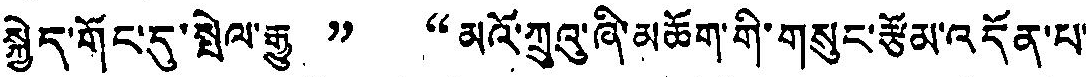སྐྱེད་གོང་དུ་སྤེལ་རྒྱུ ” “མའི་ཀྲུའུ་ཞི་མཆོག་ག་གསུང་རྩོམ་འདོན་པ་
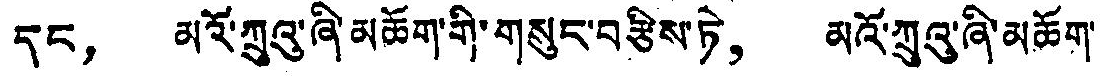དང， མའོ་ཀྲུའུ་ཞི་མཆོག་གི་གསུང་བརྩིས་ཏེ， མའོ་ཀྲུའུ་ཞི་མཆོག་
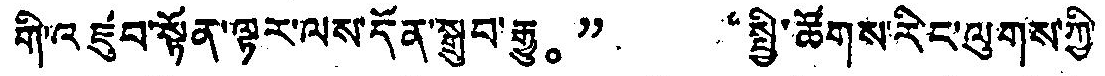གི་འཛུབ་སྟོན་ལྟར་ལས་དོན་སྒྲུབ་རྒྱུ。” “སྤྱི་ཚོགས་རིང་ལུགས་ཀྱི་
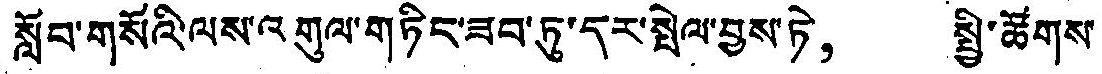སློབ་གསོའི་ལས་འགུལ་གཏིང་ཟབ་ཏུ་དར་སྤེལ་བྱས་ཏེ， སྤྱི་ཚོགས་
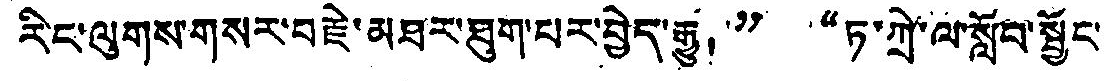རིང་ལུགས་གསར་བརྗེ་མཐར་ཐུག་པར་བྱེད་རྒྱུ།” “ཏ་ཀྲེ་ལ་སློབ་སྦྱོང་
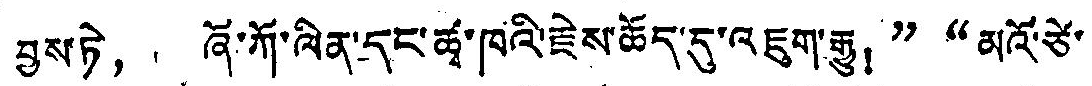བྱས་ཏེ， ཞོ་ཀོ་ལིན་དང་ཚྭ་ཁའི་རྗེས་ཆོད་དུ་འཇུག་རྒྱུ།”“མའོ་ཙེ་
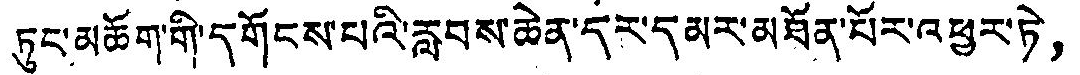ཏུང་མཆོག་གི་དགོངས་པའི་རླབས་ཆེན་དར་དམར་མཐོན་པོར་འཕྱུར་ཏེ，
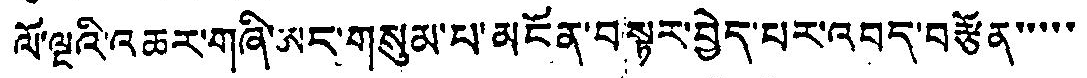ལོ་ལྔའི་འཆར་གཞི་ཨང་གསུམ་པ་མངོན་བསྟར་བྱེད་པར་འབད་བརྩོན་་་་་
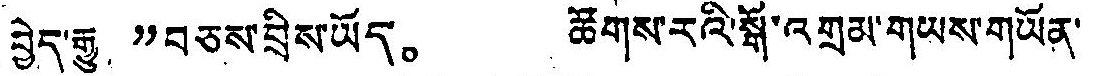བྱེད་རྒྱུ”བཅས་བྲིས་ཡོད。 ཚོགས་རའི་སྒོ་འགྲམ་གཡས་གཡོན་
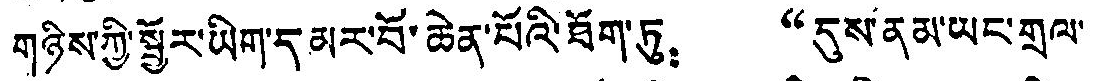གཉིས་ཀྱི་སྦྱོར་ཡིག་དམར་པོ་ཆེན་པོའི་ཐོག་ཏུ： “དུས་ནམ་ཡང་གྲལ་
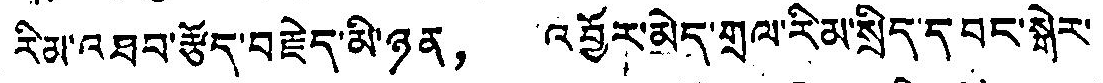རིམ་འཐབ་རྩོད་བརྗེད་མི་ཉན， འབྱོར་མེད་གྲལ་རིམ་སྲིད་དབང་སྒེར་
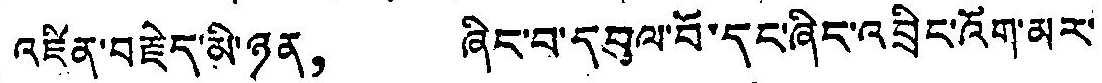འཛིན་བརྗེད་མི་ཉན， ཞེང་བ་དབུལ་བ་དང་ཞིང་འབྲིང་འོག་མར་
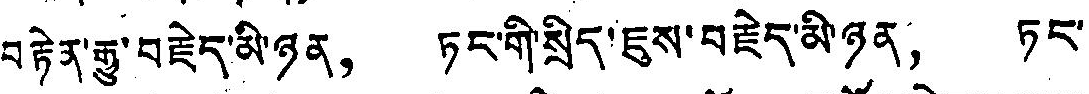བརྟེན་རྒྱུ་བརྗེད་མི་ཉན， ཏང་གི་སྲིད་ཇུས་བརྗེད་མི་ཉན， ཏང་
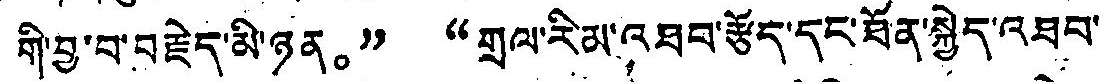གི་བྱ་བ་བརྗེད་མི་ཉན。” “གྲལ་རིམ་འཐབ་རྩོད་དང་ཐོན་སྐྱེད་འཐབ་
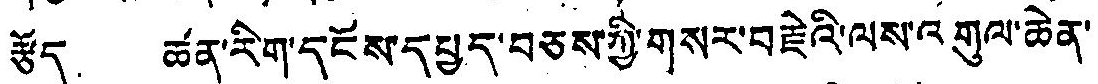རྩོད ཚན་རིག་དངོས་དཔྱད་བཅས་ཀྱི་གསར་བརྗེའི་ལས་འགུལ་ཆེན་
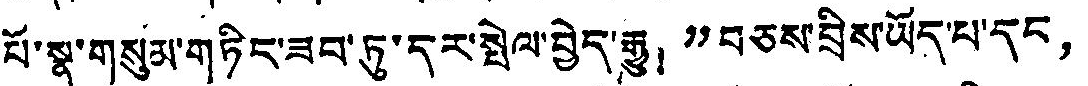པོ་སྣ་གསུམ་གཏིང་ཟབ་ཏུ་དར་སྤེལ་བྱེད་རྒྱུ།”བཅས་བྲིས་ཡོད་པ་དང，
